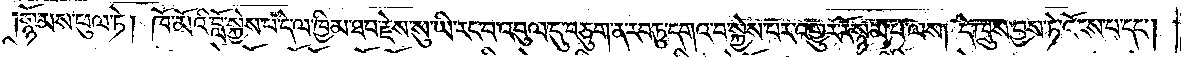སྙོམས་ཕུལ་ཏེ། ཁོ་མོའི་བློ་སྐྱེས་པ་དེ་ལ་ཁྱིམ་ཐབ་རྗེས་སུ་ཡི་རང་བ་འབུལ་དུ་བཅུག་ན་རབ་ཏུ་དགའ་བ་སྐྱེས་པར་འགྱུར་རོ་སྙམ་པ་ལས། དེ་ཁྲུས་བྱས་ཏེ་འོངས་པ་དང༌།
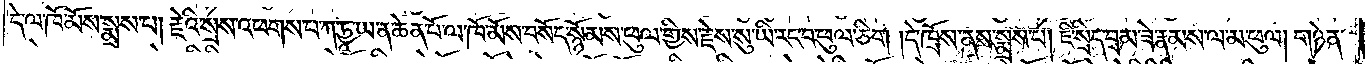དེ་ལ་ཁོ་མོས་སྨྲས་པ། རྗེའི་སྲས་འཕགས་པ་ཀ་ཏྱཱ་ཡ་ན་ཆེན་པོ་ལ་ཁོ་མོས་བསོད་སྙོམས་ཕུལ་གྱིས་རྗེས་སུ་ཡི་རང་བ་ཕུལ་ཅིག །དེ་ཁྲོས་ནས་སྨྲས་པ། ཇི་སྲིད་བྲམ་ཟེ་རྣམས་ལ་མ་ཕུལ། གཉེན་
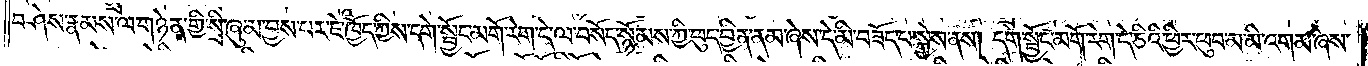བཤེས་རྣམས་ལ་གཉེན་གྱི་སྲི་ཞུ་མ་བྱས་པར་ཇེ་ཁྱོད་ཀྱིས་དགེ་སྦྱོང་མགོ་རེག་དེ་ལ་བསོད་སྙོམས་ཀྱི་ཕུད་བྱིན་ནམ་ཞེས་དེ་མི་བཟོད་པ་སྐྱེས་ནས། དགེ་སྦྱོང་མགོ་རེག་དེ་ཅིའི་ཕྱིར་ཕུབ་མ་མི་འགམ་ཞེས་
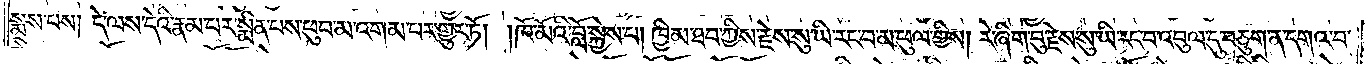སྨྲས་པས། དེ་ལས་དེའི་རྣམ་པར་སྨིན་པས་ཕུབ་མ་འགམ་པར་གྱུར་ཏོ། །ཁོ་མོའི་བློ་སྐྱེས་པ། ཁྱིམ་ཐབ་ཀྱིས་རྗེས་སུ་ཡི་རང་བ་མ་ཕུལ་གྱིས། རེ་ཞིག་བུ་རྗེས་སུ་ཡི་རང་བ་འབུལ་དུ་བཅུག་ན་དགའ་བ་
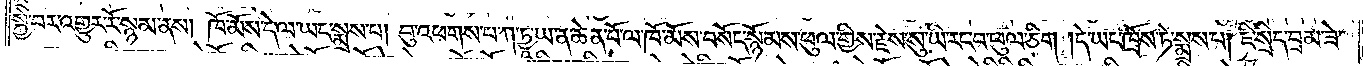སྐྱེ་བར་འགྱུར་རོ་སྙམ་ནས། ཁོ་མོས་དེ་ལ་ཡང་སྨྲས་པ། བུ་འཕགས་པ་ཀ་ཏྱཱ་ཡ་ན་ཆེན་པོ་ལ་ཁོ་མོས་བསོད་སྙོམས་ཕུལ་གྱིས་རྗེས་སུ་ཡི་རང་བ་ཕུལ་ཅིག །དེ་ཡང་ཁྲོས་ཏེ་སྨྲས་པ། ཇི་སྲིད་བྲམ་ཟེ་
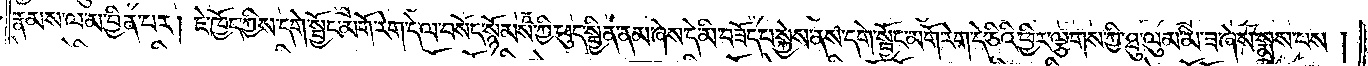རྣམས་ལ་མ་བྱིན་པར། ཇེ་ཁྱོད་ཀྱིས་དགེ་སྦྱོང་མགོ་རེག་དེ་ལ་བསོད་སྙོམས་ཀྱི་ཕུད་སྦྱིན་ནམ་ཞེས་དེ་མི་བཟོད་པ་སྐྱེས་ནས་དགེ་སྦྱོང་མགོ་རེག་དེ་ཅིའི་ཕྱིར་ལྕགས་ཀྱི་ཐུ་ལུམ་མི་ཟ་ཞེས་སྨྲས་པས།
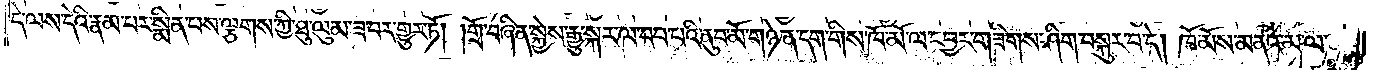དེ་ལས་དེའི་རྣམ་པར་སྨིན་པས་ལྕགས་ཀྱི་ཐུ་ལུམ་ཟ་བར་གྱུར་ཏོ། །གྲོ་བཞིན་སྐྱེས་རྒྱུ་སྐར་ལ་བབ་པའི་ནུབ་མོ་གཉེན་དག་གིས་ཁོ་མོ་ལ་དབྱར་གཟིགས་ཤིག་བསྐུར་བ་དེ། ཁོ་མོས་མནའ་མ་ལ་
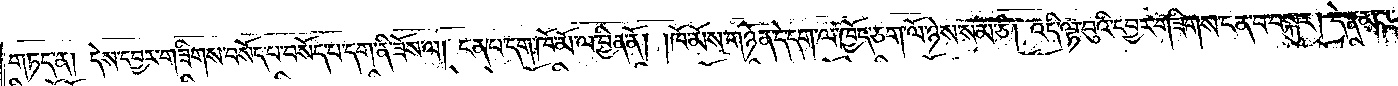གཏད་ན། དེས་དབྱར་གཟིགས་བསོད་པ་བསོད་པ་དག་ནི་ཟོས་ལ། ངན་པ་དག་ཁོ་མོ་ལ་བྱིན་ནོ། །ཁོ་མོས་གཉེན་དེ་དག་ལ་ཁྱོད་ཅག་ལོ་ཉེས་སམ་ཅི། འདི་ལྟ་བུའི་དབྱར་གཟིགས་ངན་པ་བསྐུར། དེ་རྣམས་
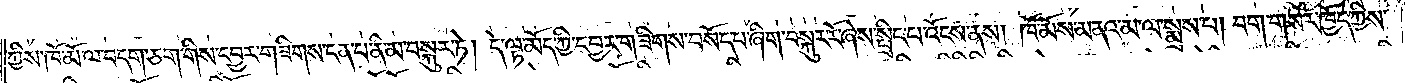ཀྱིས་ཁོ་མོ་ལ་བདག་ཅག་གིས་དབྱར་གཟིགས་ངན་པ་ནི་མ་བསྐུར་ཏེ། དེ་ལྟ་མོད་ཀྱི་དབྱར་གཟིགས་བསོད་པ་ཞིག་བསྐུར་རོ་ཞེས་སྤྲིང་པ་འོངས་ནས། ཁོ་མོས་མནའ་མ་ལ་སྨྲས་པ། བག་གསར་ཁྱོད་ཀྱིས་
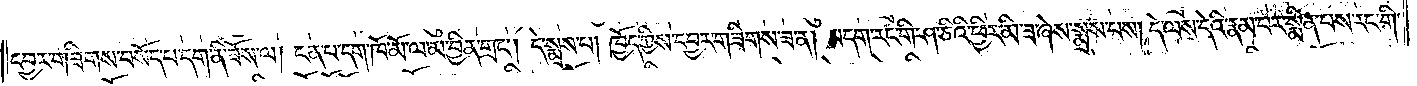དབྱར་གཟིགས་བསོད་པ་དག་ནི་ཟོས་ལ། ངན་པ་དག་ཁོ་མོ་ལ་མ་བྱིན་གྲང༌། དེ་སྨྲས་པ། ཁྱོད་ཀྱིས་དབྱར་གཟིགས་ཟ་ན། བདག་རང་གི་ཤ་ཅིའི་ཕྱིར་མི་ཟ་ཞེས་སྨྲས་པས། དེ་ལས་དེའི་རྣམ་པར་སྨིན་པས་རང་གི་
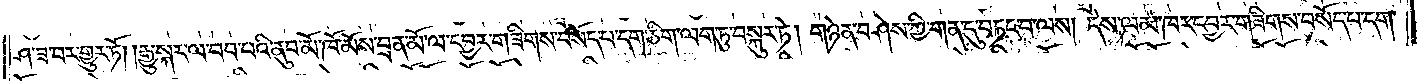ཤ་ཟ་བར་གྱུར་ཏོ། །རྒྱུ་སྐར་ལ་བབ་པའི་ནུབ་མོ་ཁོ་མོས་བྲན་མོ་ལ་དབྱར་གཟིགས་བསོད་པ་དག་ཅིག་ལག་ཏུ་བསྐུར་ཏེ། གཉེན་བཤེས་ཀྱི་གན་དུ་བཏང་བ་ལས། དེས་ལམ་ཁར་དབྱར་གཟིགས་བསོད་པ་དག་
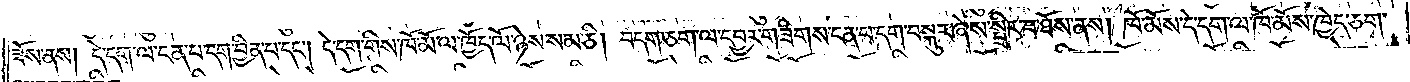ཟོས་ནས། དེ་དག་ལ་ངན་པ་དག་བྱིན་པ་དང༌། དེ་དག་གིས་ཁོ་མོ་ལ་ཁྱོད་ལོ་ཉེས་སམ་ཅི། བདག་ཅག་ལ་དབྱར་གཟིགས་ངན་པ་དག་བསྐུར་ཞེས་སྤྲིང་བ་ཐོས་ནས། ཁོ་མོས་དེ་དག་ལ་ཁོ་མོས་ཁྱེད་ཅག་
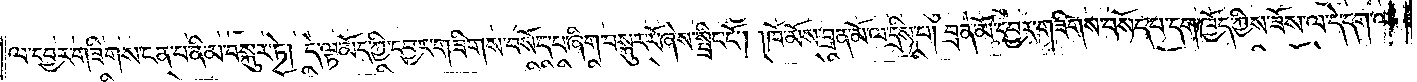ལ་དབྱར་གཟིགས་ངན་པ་ནི་མ་བསྐུར་ཏེ། དེ་ལྟ་མོད་ཀྱི་དབྱར་གཟིགས་བསོད་པ་ཞིག་བསྐུར་རོ་ཞེས་སྤྲིང་ངོ༌། །ཁོ་མོས་བྲན་མོ་ལ་དྲིས་པ། བྲན་མོ་དབྱར་གཟིགས་བསོད་པ་དག་ཁྱོད་ཀྱིས་ཟོས་ལ་དེ་དག་ལ་
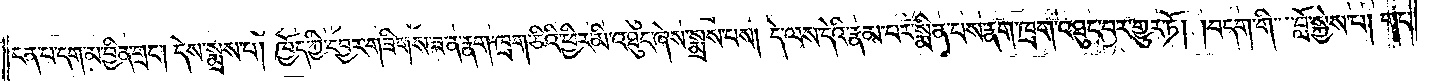ངན་པ་དག་མ་བྱིན་གྲང༌། དེས་སྨྲས་པ། ཁྱོད་ཀྱི་དབྱར་གཟིགས་ཟ་ན་རྣག་ཁྲག་ཅིའི་ཕྱིར་མི་འཐུང་ཞེས་སྨྲས་པས། དེ་ལས་དེའི་རྣམ་པར་སྨིན་པས་རྣག་ཁྲག་འཐུང་བར་གྱུར་ཏོ། །བདག་གི་བློ་སྐྱེས་པ། གང་
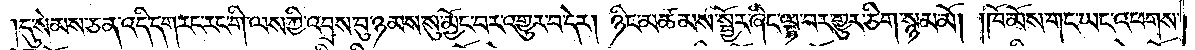དུ་སེམས་ཅན་འདི་དག་རང་རང་གི་ལས་ཀྱི་འབྲས་བུ་ཉམས་སུ་མྱོང་བར་འགྱུར་བ་དེར། ཉིང་མཚམས་སྦྱོར་ཞིང་ལྟ་བར་གྱུར་ཅིག་སྙམ་མོ། །ཁོ་མོས་གང་ཡང་འཕགས་
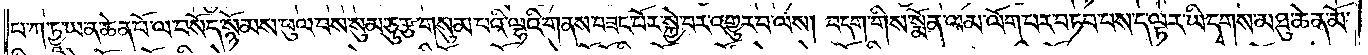པ་ཀ་ཏྱཱ་ཡན་ཆེན་པོ་ལ་བསོད་སྙོམས་ཕུལ་བས་སུམ་ཅུ་རྩ་གསུམ་པའི་ལྷའི་གནས་བཟང་པོར་སྐྱེ་བར་འགྱུར་བ་ལས། བདག་གིས་སྨོན་ལམ་ལོག་པར་བཏབ་པས་ད་ལྟར་ཡི་དྭགས་མཐུ་ཆེན་མོ་
